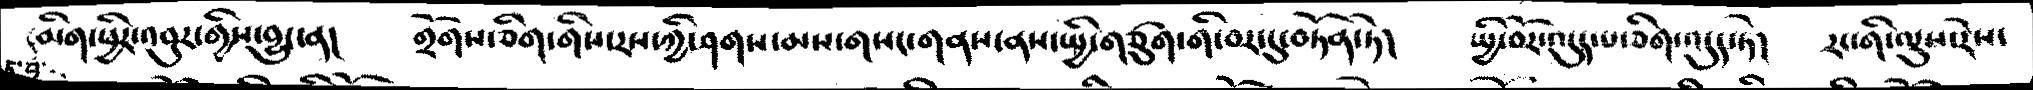མིག་ཕྱིར་འབུར་གྱིས་བྱུང་ན།   གྲོགས་ཅིག་གིས་རས་ཀྱི་ཤགས་མས་གསང་གནས་ནས་སྤྱི་གཙུག་གི་བར་དུ་བཏོན་ཏེ།   སྤྱི་བོར་འདུད་པ་ཅིག་འདུད་ཏེ།  རང་གི་ལུས་རེས་
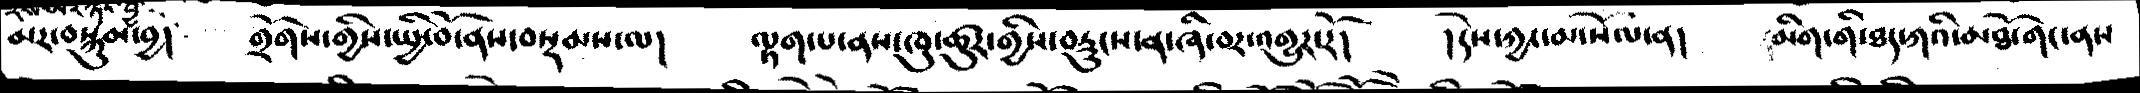མར་བསྐུམ་བྱ་།   གྲོགས་གྱིས་སྤྱི་བོ་ནས་བསྡམས་ལ།   ལྟག་པ་ནས་ཁུ་ཚུར་གྱིས་བརྡུངས་ན་ཞི་བར་འགྱུར་རོ།   །དེས་ཀྱང་མ་སོལ་ན།   མིག་གི་ཐད་ཀའི་མཐོ་གང་ནས
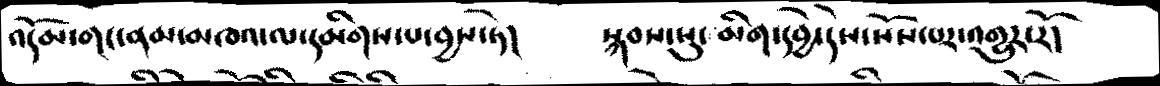འདོམ་གང་ནམ་མཁའ་ལ་དམིགས་པ་བྱས་ཏེ།   སྐབས་སུ་མིག་དབྱེ་དེས་སོས་པར་འགྱུར་རོ།
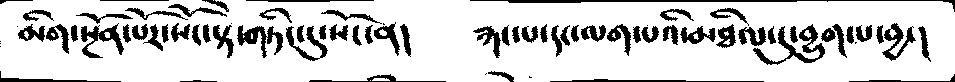མིག་སྔོན་པོར་སོང་སྟེ་གཏིང་དུ་སོང་ན།  རྐང་པ་དང་ལག་པའི་མཐིལ་དུ་བྱུག་པ་བྱ་།
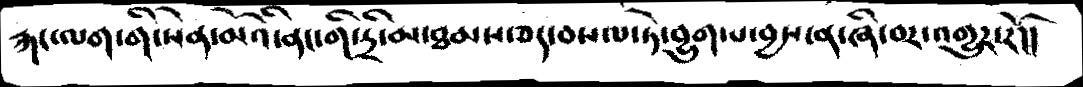རྐང་ལག་གི་སེན་མོའི་ནང་གི་དྲི་མ་ཐམས་ཅད་བསལ་ཏེ་བྱུག་པ་བྱས་ན་ཞི་བར་འགྱུར་རོ།།
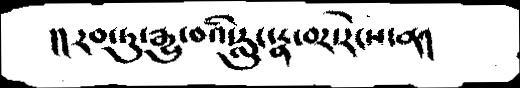།།རབ་ཏུ་རྒྱུ་བའི་རླུང་རྣ་བར་རེངས་ན།
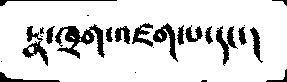སྣ་ཁྲག་འཛག་པ་དང་།
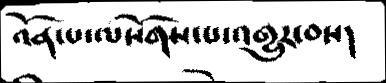འོན་ལ་ལསོགས་པ་འགྱུར་བས།
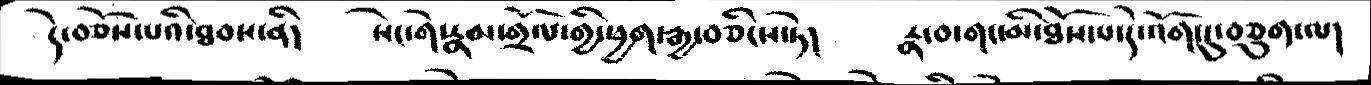དེ་བཅོས་པའི་ཐབས་ནི།   སེང་གེ་རྣམ་གྲོལ་གྱི་ཕྱག་རྒྱ་བཅིངས་ཏེ།  རྣ་བ་གང་མི་ཐོས་པ་དེ་འོག་དུ་བཅུག་ལ།
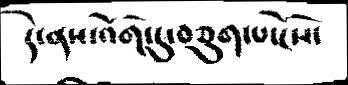དེ་ནས་འོག་དུ་བཅུག་པ་ངོས་
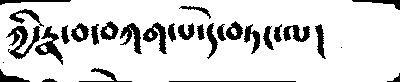ཀྱི་རྣ་བ་བཀག་པ་དེ་བཏང་ལ།
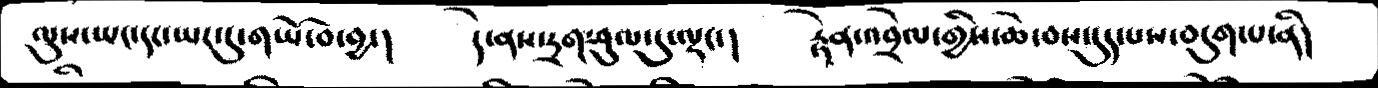ལུས་ཡང་དང་ཡང་དུ་གཡོ་བ་བྱ་།   དེ་ནས་དྲག་ཤུལ་དུ་ལྡང་།   རྟེན་འབྲེལ་གྱིས་ཆེ་བས་དུད་པས་བདུག་པ་ནི།
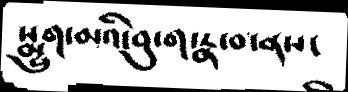སྨྱུག་མའི་བུ་ག་རྣ་བ་ནས་
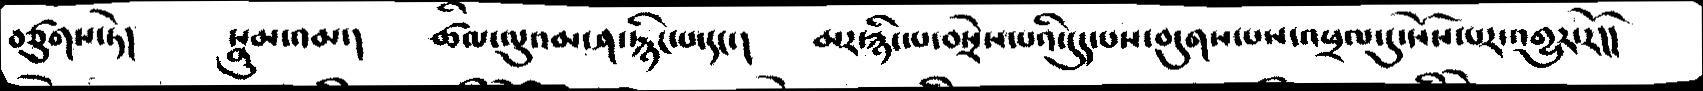བཙུགས་ཏེ།  སྣུམ་འམ་།  ཚིལ་ལུའམ་ཤ་རྙིང་པ་དང་།   མར་རྙིང་པ་བསྲེས་པའི་དུད་པས་བདུགས་པས་འཕྲལ་དུ་སོས་པར་འགྱུར་རོ།།
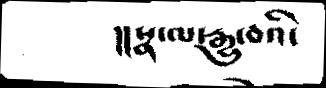།།སྣ་ལ་རྒྱུ་བའི་
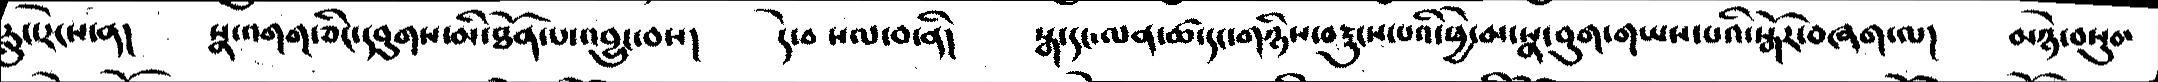རླུང་རེངས་ན།  སྣ་འགག་ཅིང་དབུགས་མི་ཐོན་པ་འབྱུང་བས།  དེ་བསལ་བ་ནི།  སྒ་དང་ལན་ཚ་དང་གཉིས་བརྡུངས་པའི་ཕྱེ་མ་སྣ་བུག་གཡས་པའི་སྒོར་བཞག་ལ།  མཉེ་བསུབ་
